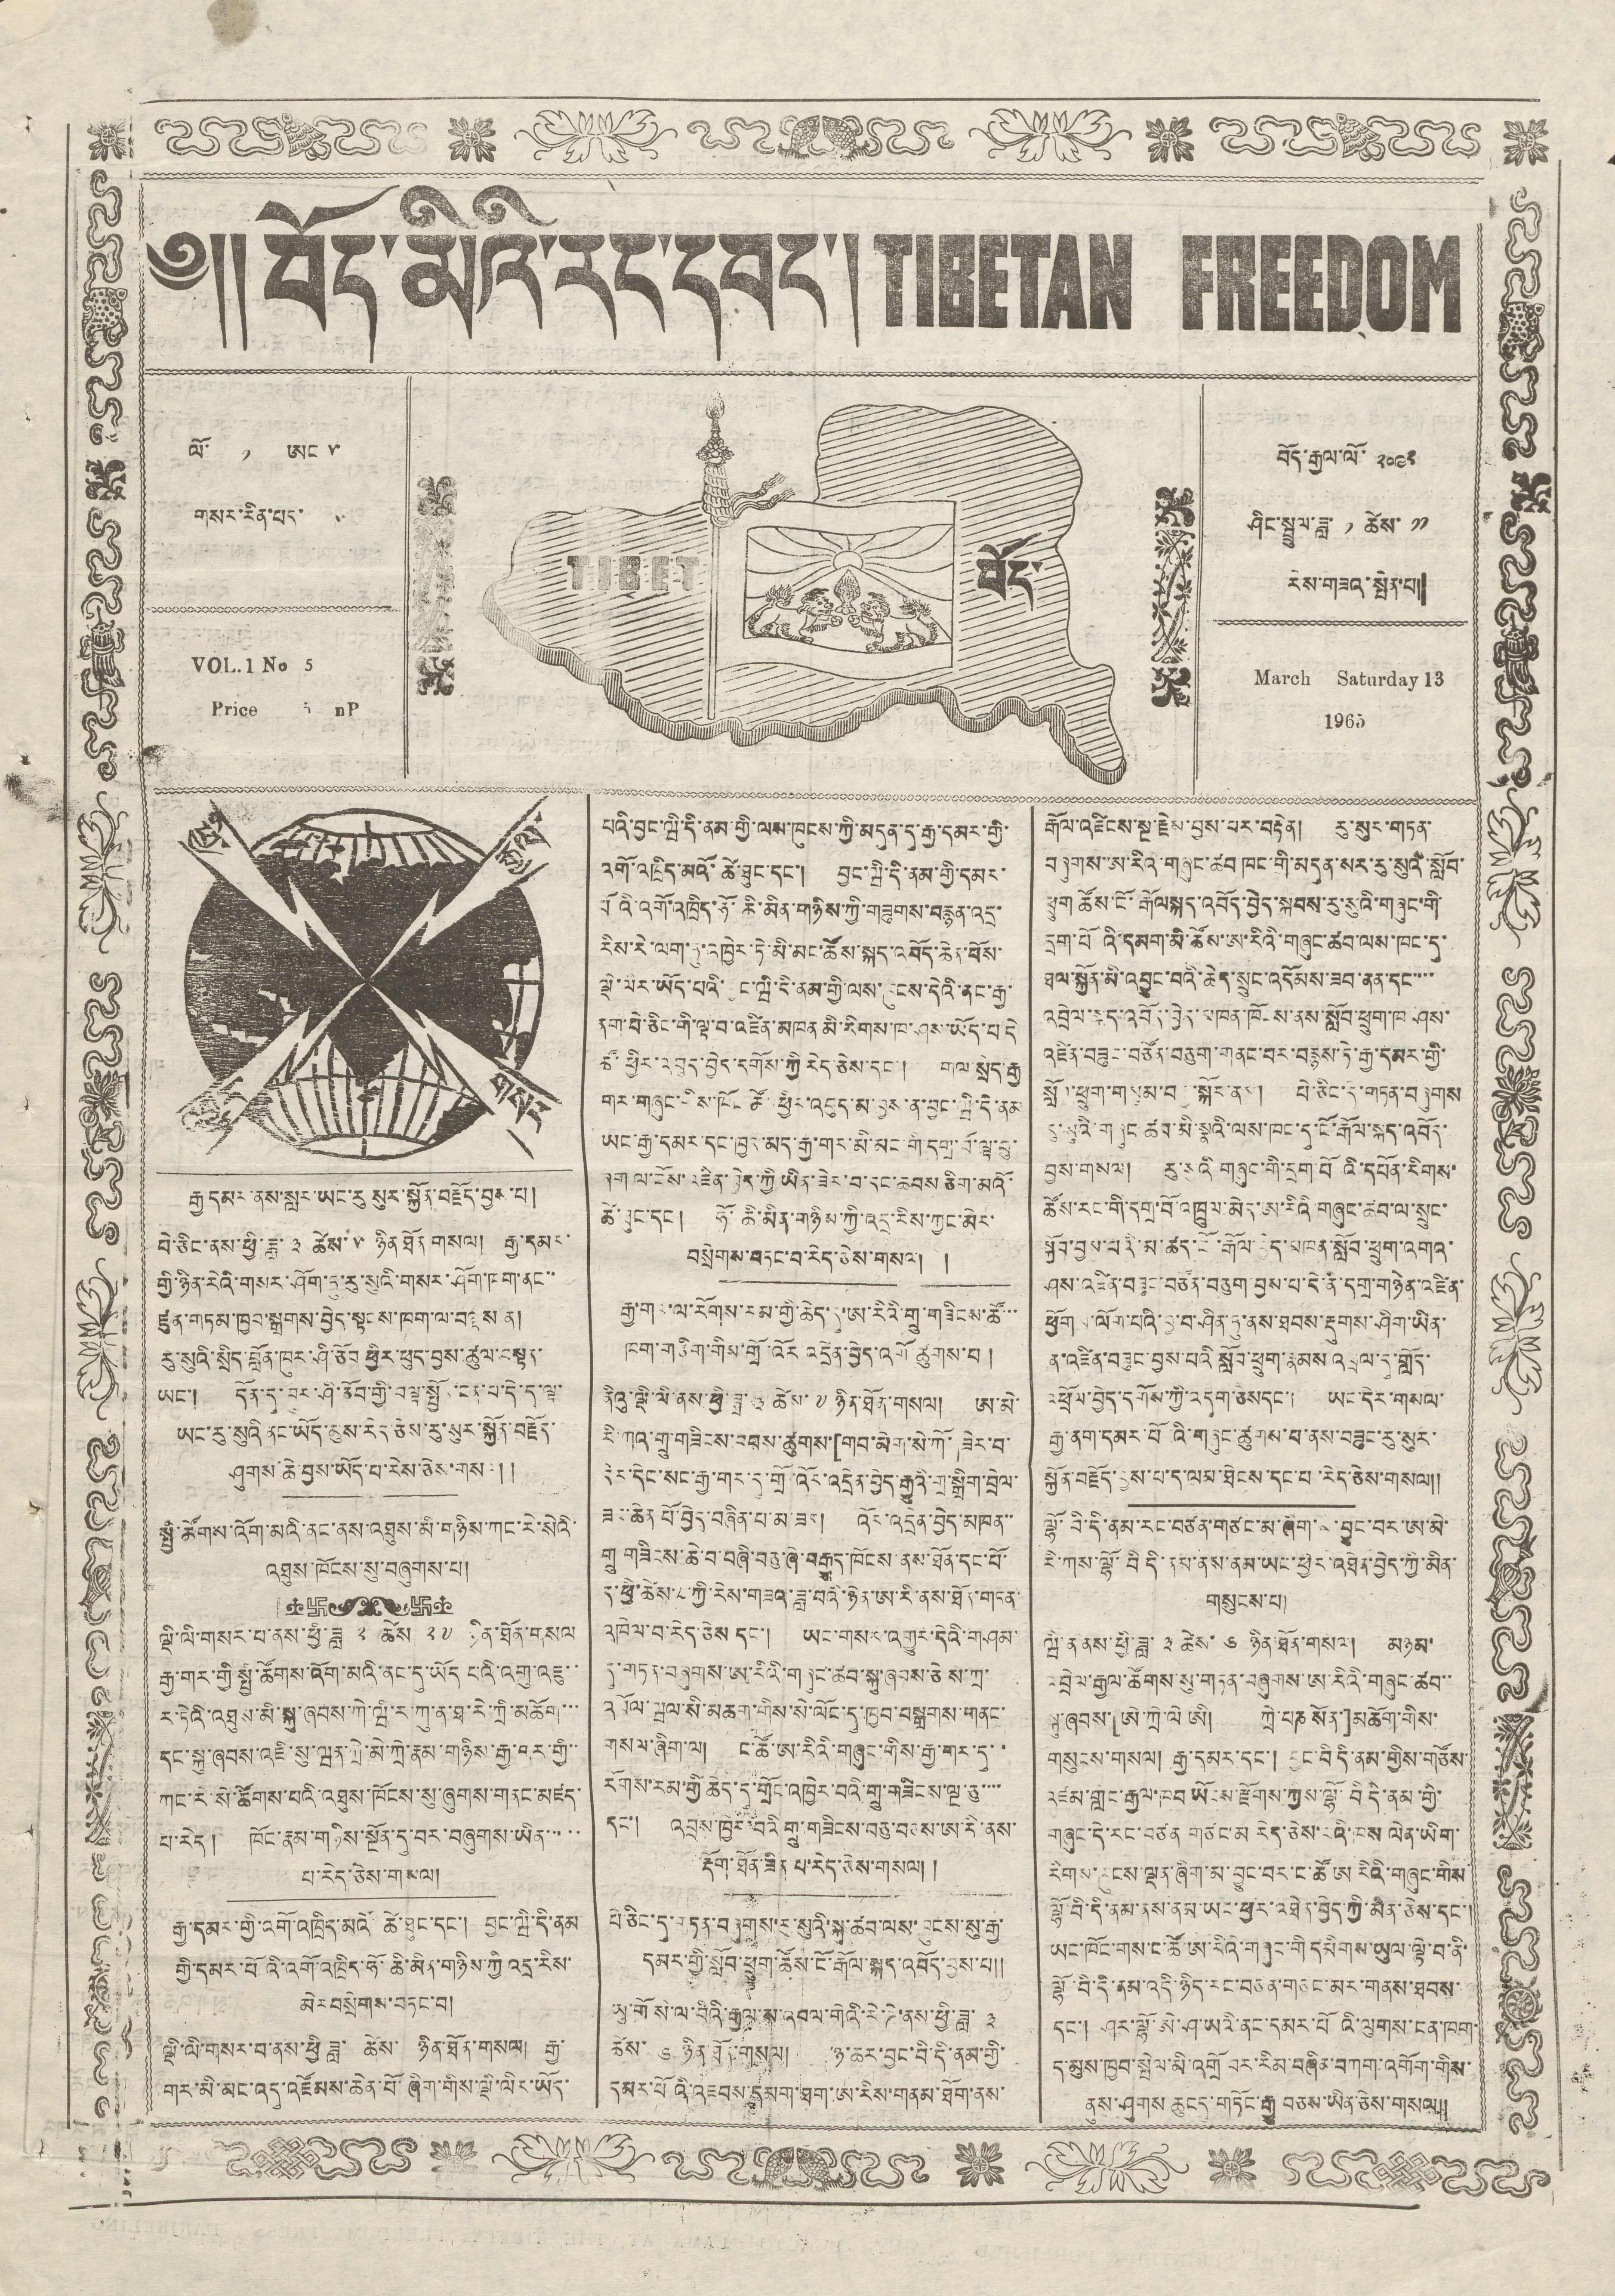༄།། བོད་མིའི་རང་དབང་།TIBETAN FREEDOM
TIBET བོད་
ལོ་ ༡ ཨང ༥
གསར་རིན་པད་ ༥
VOL. 1 NO 5
Price 5 nP
བོད་རྒྱལ་ལོ་ ༢༠༩༢
ཤིང་སྦྲུལ་ཟླ་ ༡ ཚེས་ ༡༡
རེས་གཟའ་སྤེན་པ།།
March Saturday 13
1965
ཕྱི་
རྒྱལ་
གསར
འགྱུར་
རྒྱ དམར་ནས་སླར་ཡང་རུ སུར་སྐྱོན་བརྗོད་བྱས་པ།
པེ་ཅིང་ནས་ཕྱི་ཟླ་ ༣ ཚེས་ ༥ ཉིན ཐོན གསལ། རྒྱ་དམར་
གྱི་ཉིན་རེའི་གསར་ཤོག་དུ་རུ་སུའི་གསར་ཤོག་ཁག་ནང་་
ཛུན་གཏམ་ཁྱབ་སྒྲགས་བྱེད་སྟངས་ཁག་ལ་བལྟས ན།
རུ་སུའི་སྲིད་བློན་ཁུར་ཤི་ཅོབ ཕྱིར་ཕུད་བྱས་ཚུལ་བསྟན་
ཡང་། དོན་དུ་ཁུར་ཤི་ཅོབ་གྱི་བལྟ་སྦྱོར་ངན་བ་དེ་ད་ལྟ་
ཡང་རུ་སུའི ནང་ཡོད་མུས་རེད་ཅེས་རུ་སུར་སྐྱོན་བརྗོད་
ཤུགས་ཆེ་བྱས་ཡོད་པ་རེད་ཅེས་གསལ།།
སྤྱི་ཚོགས་འོག་མའི་ནང་ནས་འཐུས་མི་གཉིས་ཀང་རེ་སིའི་
འཐུས་ཁོངས་སུ་བཞུགས་པ།
ལྡི་ལི་གསར་པ་ནས་ཕྱི་ཟླ ༢ ཚེས་ ༢༧ ཉིན་ཐོན་གསལ
རྒྱ་གར་གྱི་སྤྱི་ཚོགས་འོག་མའི་ནང་དུ་ཡོད པའི་འགུ་འཇུ་་
ར་ཏེའི་འཐུས་མི་སྐུ་ཞབས་ཀེ་ཝི་ར་ཀུ་ན་ཐ་རེ་ཀྲི་མཆོག་་་
དང་སྐུ་ཞབས་འཇི་སུ་ཝན་ཀྲེ་མེ་ཀྲེ་རྣམ་གཉིས་རྒྱ་གར་གྱི་་
ཀང་རེ་སེ་ཚོགས་པའི་འཐུས་ཁོངས་སུ་ཞུགས་གནང་མཛད་
པ་རེད། ཁོང་རྣམ་གཉིས་སྔོན་དུ་བར་བཞུགས་ཡིན་་་་་
པ་རེད་ཅེས་གསལ།
རྒྱ་དམར་གྱི་འགོ་འཁྲིད་མའོ་ཚེ་ཐུང་དང་། བྱང་ཝི་དི་ནམ་
གྱི་དམར་པོའི་འགོ་འཁྲིད་ཧོ་ཆི་མིན་གཉིས་ཀྱི འདྲ་རིས་
མེར་བསྲེགས་བཏང་བ།
ལྡི་ལི་གསར་པ་ནས་ཕྱི ཟླ་ ཚེས་ ཉིན་ཐོན་གསལ། རྒྱ་
གར་མི་མང་འདུ་འཛོམས་ཆེན་པོ་ཞིག་གིས་ལྡི་ལིར་ཡོད་
པའི་བྱང་ཝི་དི་ནམ་གྱི་ལས་ཁུངས་ཀྱི་མདུན་དུ་རྒྱ་དམར་གྱི་
འགོ་འཁྲིད་མའོ་ཚེ་ཐུང་དང་། བྱང་ཝི་དི་ནམ་གྱི་དམར་
པོའི་འགོ་འཁྲིད་ཧོ་ཆི་མིན་གཉིས་ཀྱི་གཟུགས་བརྙན་འདྲ་
རིས་རེ་ལག་ཏུ་འཁྱེར་ཏེ་མི་མང་ཚོས་སྐད་འབོད་ཆེན་པོས་
ལྡི་ལིར་ཡོད་པའི་བྱང་ཝི་དི་ནམ་གྱི་ལས་ཁུངས་དེའི་ནང་རྒྱ་
ནག་པེ་ཅིང་གི་ལྟ་བ་འཛིན་མཁན མི་རིགས་ཁ་ཤས་ཡོད་པ་དེ
ཚོ་ཕྱིར་འབུད་བྱེད་དགོས་ཀྱི རེད་ཅེས་དང། གལ་སྲིད་རྒྱ་
གར་གཞུང་གྱིས་ཁོང་ཚོ་ཕྱིར་འབུད་མ་བྱས་ན་བྱང་ཝི་དི་ནམ
ཡང་རྒྱ་དམར་དང་ཁྱལ་མད་རྒྱ་གར་མི་མང་གི་དགྲ་པོ་ལྟ་བུ་
ཞག ལ་ངོས་འཛིན་བྱེད་ཀྱི ཡིན་ཟེར་བ་དང་ཆབས ཅིག་མའོ་
ཚེ་ཐུང་དང་། ཧོ་ཆི་མིན་གཉིས་ཀྱི་འདྲ་རིས་ཀྱང་མེར་
བསྲེགས་བཏང་བ་རེད་ཅེས་གསལ། །
རྒྱ་གར་ལ་རོགས་རམ་གྱི་ཆེད་དུ་ཨ་རིའི་གྲུ་གཟིངས་ཚོ་་་
ཁག་གཅིག་གིས་གྲོ་འོར འདྲེན་བྱེད་འགྲོ ཚུགས་པ།
ནིའུ་ལྡི་ལི་ནས་ཕྱི་ཟླ་ ༣ ཚེས་ ༧ ཉིན་ཐོན་གསལ། ཨ་མེ་
རི་ཀའི་གྲུ་གཟིངས་འབས་ཚུགས་[གབ་མེག་སེ་ཀོ་ ཟེར་བ་
དེར་དེང་སང་རྒྱ་གར་དུ་གྲོ་འོར་འདྲེན་བྱེད་རྒྱུའི་གྲ་སྒྲིག་བྲེལ་
ཟང་ཆེན་པོ་བྱེད་བཞིན་པ་མ་ཟད། འོར་འདྲེན་བྱེད་མཁན་་
གྲུ གཟིངས་ཆེ་བ་བཞི་བཅུ་ཞེ་བརྒྱུད་ཁོངས་ནས་ཐོན་དང་པོ་
ད་ཕྱི་ཚེས་༨་ཀྱི་རེས་གཟའ་ཟླ་བའི་ཉིན་ཨ་རི་ནས་ཐོན་གཏན་
འཁེལ་བ་རེད་ཅེས དང་། ཡང་གསར་འགྱུར་དེའི་གཤམ་
དུ་གཏན་བཞུགས་ཨ་རིའི་གཞུང་ཚབ་སྐུ་ཞབས་ཅེས་ཀྲ་
འབོལ་ཝལ་སི་མཆག་གིས་སེ་ལོང་དུ་ཁྱབ་བསྒྲགས་གནང་
གསལ་ཞིག་ལ། ང་ཚོ་ཨ་རིའི་གཞུང་གིས་རྒྱ་གར་དུ་་
རོགས་རམ་གྱི ཆེད་དུ་གྲོང་འཁྱེར་བའི་གྲུ་གཟིངས་ལྔ་ཅུ་་་་
དང་། འབྲས་ཁྱེར་བའི་གྲུ་གཟིངས་བཅུ་བཅས་ཨ་རི་ནས་
རྡོག་ཐོན་ཟིན པ་རེད་ཅེས་གསལ། །
པེ ཅིང་དུ་གཏན་བཞུགས་རུ་སུའི་སྐུ་ཚབ་ལས་ཁུངས་སུ་རྒྱ་
དམར་གྱི་སློབ་ཕྲུག་ཚོས་ངོ་རྒོལ་སྐད་འབོད་བྱས་པ།།
ཡུ་གོ སེ་ལ་བིའི་རྒྱལ་ས་འབར་གེའི་རེ་ཌེ་ནས་ཕྱི་ཟླ་ ༣
ཚེས་ ༦ ཉིན་ཐོན་གསལ། ་ཉ་ཆར་བྱང་བི་དི་ནམ་གྱི་
དམར་པོའི་འཇབས་དམག་ཐག་ཨ་རིས་གནམ་ཐོག་ནས་
རྒོལ་འཛིངས་སྔ་རྗེས་བྱས་པར་བརྟེན། རུ་སུར་གཏན་
བཞུགས་ཨ་རིའི་གཞུང་ཚབ ཁང་གི་མདུན་སར་རུ་སུའི་སློབ་
ཕྲུག་ཚོས་ངོ་རྒོལསྐད་འབོད་བྱེད་སྐབས་རུ་སུའི་གཞུང་གི་
དྲག་པོའི་དམག་མི་ཚོས་ཨ་རིའི་གཞུང་ཚབ་ལས་ཁང་དུ་
ཐལ་སྐྱོན་མི་འབྱུང་བའི་ཆེད་སྲུང་འདོམས་ཟབ་ནན་དང་་་་
འབྲེལ་སྐད་འབོད་བྱེད་མཁན་ཁོངས་ནས་སློབ་ཕྲུག་ཁ་ཤས་
འཛིན་བཟུང་བཙོན་བཅུག་གནང་བར་བརྙས་ཏེ་རྒྱ་དམར་གྱི་
སློབ་ཕྲུག་གསུམ་བརྒྱ་སྐོར་ནས། པེ་ཅིང་དུ་གཏན་བཞུགས
རུ་སུའི་གཞུང ཚབ་མི་སྣའི་ལས་ཁང་དུ་ངོ་རྒོལ་སྐད་འབོད་
བྱས་གསལ། རུ་སུའི གཞུང་གི་དྲག་པོའི་དཔོན་རིགས་
ཚོས་རང་གི་དགྲ་བོ་འཁྲུལ་མེད་ཨ་རིའི་གཞུང་ཚབ་ལ་སྲུང་
སྐྱོབ་བྱས་པའི་མ་ཚད་ངོ་རྒོལ་བྱེད་མཁན་སློབ་ཕྲུག་འགའ་
ཤས་འཛིན་བཟུང་བཙོན་བྱས་པ་དེ་ནི་དགྲ་གཉེན་འཛིན་
ཕྱོགས་ལོག་པའི་བྱ་བ་ཤིན་ཏུ་བས་ཐབས་རྡུགས་ཤིག་ཡིན་
ན་འཛིན་བཟུང་བྱས་པའི སློབ་ཕྲུག་རྣམས འཕྲལ་དུ་གློད་
འཕྲོལ་བྱེད་དགོས་ཀྱི་འདུག་ཅེསདང་། ཡང་དེར་གསལ་
རྒྱ་ནག་དམར་པོ འི་གཞུང་ཚུགས་པ་ནས་བཟུང་རུ་སུར་
སྐྱོན་བརྗོད་བྱས་པ་ད་ལམ་ཐེངས་དང་པ་རེད་ཅེས་གསལ།།
ལྷོ་བི་དི་ནམ་རང་བཙན་གཙང་མ་ཞིག་མ་བྱུང་བར་ཨ་མེ་
རི་ཀས་ལྷོ་བི དི་ནམ་ནས་ནམ་ཡང་ཕྱིར་འཐེན་བྱེད་ཀྱི་མིན་
གསུངས་པ།
ཝི་ན ནས་ཕྱི་ཟླ་ ༣ ཚེས་ ༦ ཉིན་ཐོན་གསལ། མཉམ་
འབྲེལ་རྒྱལ་ཚོགས་སུ་གཏན་བཞུགས་ཨ་རིའི་གཞུང་ཚབ་་
སྐུ་ཞབས་[ཨེ་ཀྲེ་ལེ ཨི། ཀྲེ་པཎ སོན་]མཆོག་གིས་
གསུངས་གསལ། རྒྱ་དམར་དང་། བྱང་བི་དི་ནམ་གྱིས་གཙོས་
འཛམ་གླིང་རྒྱལ་ཁབ ཡོངས་རྫོགས་ཀྱིས་ལྷོ་བི་དི་ནམ་གྱི་
གཞུང་དེ་རང་བཙན བཙང་མ རེད་ཅེས་པའི་ཁས ལེན་ཡིག་
རིགས་ཁུངས་ལྡན་ཞིག་མ་བྱུང་བར་ང་ཚོ ཨ་རིའི་གཞུང་གིས་
ལྷོ་བ་དི་ནམ་ནས་ནམ་ཡང་ཕྱིར་འཐེན་བྱེད་ཀྱི་མིན་ཅེས་དང་།
ཡང་ཁོང་གས་ང་ཚོ་ཨ་རིའི་གཞུང་གི དམིགས་ཡུལ་ལྟེ་བ་ནི་
ལྷོ་བི་དི་ནམ་འདི་ཉིད་རང་བཙན་གཙང་མར་གནས་ཐབས་
དང་། ཤར་ལྷོ་ཨེ་ཤ་ཡའི་ནང་དམར་པོ འི་ལུགས་ངན་ཁག་
ད་མུས་ཁྱབ་སྤེལ་མི་འགྲོ བར་རིམ་བཞིན་བཀག་འགོག་གིས་
ནུས་ཤུགས ཆུངདུ་གཏོང་རྒྱུ བཅས་ཡིན་ཅེས་གསལ།།
